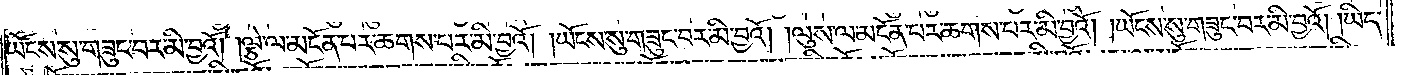ཡོངས་སུ་གཟུང་བར་མི་བྱའོ། །ལྕེ་ལ་མངོན་པར་ཆགས་པར་མི་བྱའོ། །ཡོངས་སུ་གཟུང་བར་མི་བྱའོ། །ལུས་ལ་མངོན་པར་ཆགས་པར་མི་བྱའོ། །ཡོངས་སུ་གཟུང་བར་མི་བྱའོ། །ཡིད་
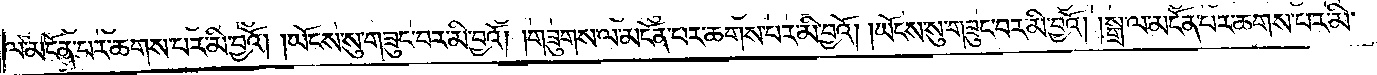ལ་མངོན་པར་ཆགས་པར་མི་བྱའོ། །ཡོངས་སུ་གཟུང་བར་མི་བྱའོ། །གཟུགས་ལ་མངོན་པར་ཆགས་པར་མི་བྱའོ། །ཡོངས་སུ་གཟུང་བར་མི་བྱའོ། །སྒྲ་ལ་མངོན་པར་ཆགས་པར་མི་
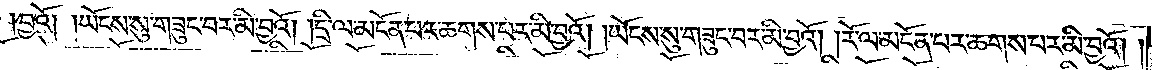བྱའོ། །ཡོངས་སུ་གཟུང་བར་མི་བྱའོ། །དྲི་ལ་མངོན་པར་ཆགས་པར་མི་བྱའོ། །ཡོངས་སུ་གཟུང་བར་མི་བྱའོ། །རོ་ལ་མངོན་པར་ཆགས་པར་མི་བྱའོ། །
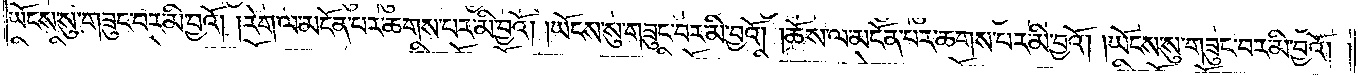ཡོངས་སུ་གཟུང་བར་མི་བྱའོ། །རེག་ལ་མངོན་པར་ཆགས་པར་མི་བྱའོ། །ཡོངས་སུ་གཟུང་བར་མི་བྱའོ། །ཆོས་ལ་མངོན་པར་ཆགས་པར་མི་བྱའོ། །ཡོངས་སུ་གཟུང་བར་མི་བྱའོ། །
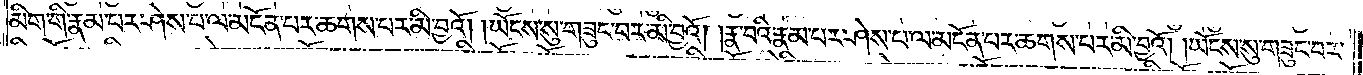མིག་གི་རྣམ་པར་ཤེས་པ་ལ་མངོན་པར་ཆགས་པར་མི་བྱའོ། །ཡོངས་སུ་གཟུང་བར་མི་བྱའོ། །རྣ་བའི་རྣམ་པར་ཤེས་པ་ལ་མངོན་པར་ཆགས་པར་མི་བྱའོ། །ཡོངས་སུ་གཟུང་བར་
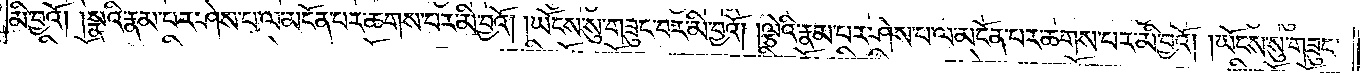མི་བྱའོ། །སྣའི་རྣམ་པར་ཤེས་པ་ལ་མངོན་པར་ཆགས་པར་མི་བྱའོ། །ཡོངས་སུ་གཟུང་བར་མི་བྱའོ། །ལྕེའི་རྣམ་པར་ཤེས་པ་ལ་མངོན་པར་ཆགས་པར་མི་བྱའོ། །ཡོངས་སུ་གཟུང་
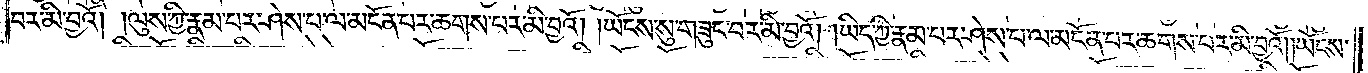བར་མི་བྱའོ། །ལུས་ཀྱི་རྣམ་པར་ཤེས་པ་ལ་མངོན་པར་ཆགས་པར་མི་བྱའོ། །ཡོངས་སུ་གཟུང་བར་མི་བྱའོ། །ཡིད་ཀྱི་རྣམ་པར་ཤེས་པ་ལ་མངོན་པར་ཆགས་པར་མི་བྱའོ། །ཡོངས་
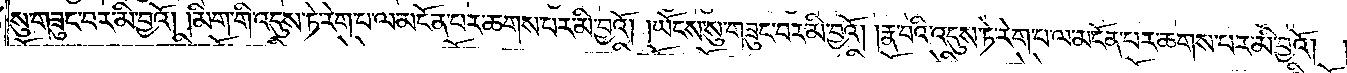སུ་གཟུང་བར་མི་བྱའོ། །མིག་གི་འདུས་ཏེ་རེག་པ་ལ་མངོན་པར་ཆགས་པར་མི་བྱའོ། །ཡོངས་སུ་གཟུང་བར་མི་བྱའོ། །རྣ་བའི་འདུས་ཏེ་རེག་པ་ལ་མངོན་པར་ཆགས་པར་མི་བྱའོ། །
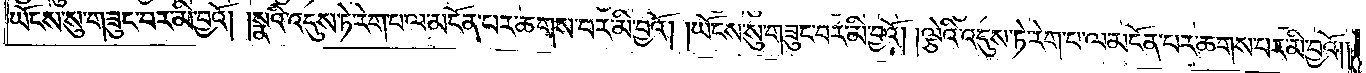ཡོངས་སུ་གཟུང་བར་མི་བྱའོ། །སྣའི་འདུས་ཏེ་རེག་པ་ལ་མངོན་པར་ཆགས་པར་མི་བྱའོ། །ཡོངས་སུ་གཟུང་བར་མི་བྱའོ། །ལྕེའི་འདུས་ཏེ་རེག་པ་ལ་མངོན་པར་ཆགས་པར་མི་བྱའོ། །
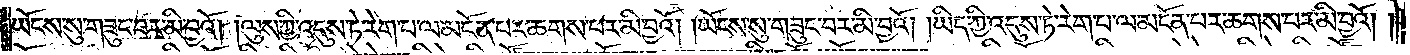ཡོངས་སུ་གཟུང་བར་མི་བྱའོ། །ལུས་ཀྱི་འདུས་ཏེ་རེག་པ་ལ་མངོན་པར་ཆགས་པར་མི་བྱའོ། །ཡོངས་སུ་གཟུང་བར་མི་བྱའོ། །ཡིད་ཀྱི་འདུས་ཏེ་རེག་པ་ལ་མངོན་པར་ཆགས་པར་མི་བྱའོ། །
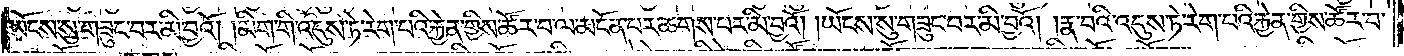ཡོངས་སུ་གཟུང་བར་མི་བྱའོ། །མིག་གི་འདུས་ཏེ་རེག་པའི་རྐྱེན་གྱིས་ཚོར་བ་ལ་མངོན་པར་ཆགས་པར་མི་བྱའོ། །ཡོངས་སུ་གཟུང་བར་མི་བྱའོ། །རྣ་བའི་འདུས་ཏེ་རེག་པའི་རྐྱེན་གྱིས་ཚོར་བ་
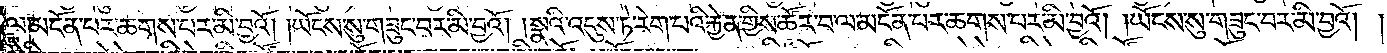ལ་མངོན་པར་ཆགས་པར་མི་བྱའོ། །ཡོངས་སུ་གཟུང་བར་མི་བྱའོ། །སྣའི་འདུས་ཏེ་རེག་པའི་རྐྱེན་གྱིས་ཚོར་བ་ལ་མངོན་པར་ཆགས་པར་མི་བྱའོ། །ཡོངས་སུ་གཟུང་བར་མི་བྱའོ། །
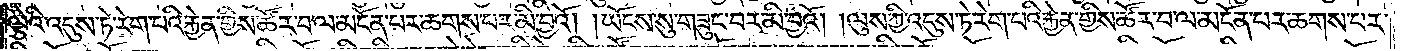ལྕེའི་འདུས་ཏེ་རེག་པའི་རྐྱེན་གྱིས་ཚོར་བ་ལ་མངོན་པར་ཆགས་པར་མི་བྱའོ། །ཡོངས་སུ་གཟུང་བར་མི་བྱའོ། །ལུས་ཀྱི་འདུས་ཏེ་རེག་པའི་རྐྱེན་གྱིས་ཚོར་བ་ལ་མངོན་པར་ཆགས་པར་
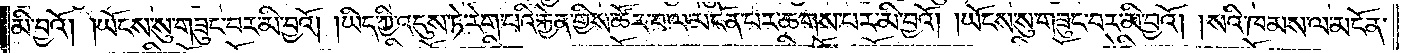མི་བྱའོ། །ཡོངས་སུ་གཟུང་བར་མི་བྱའོ། །ཡིད་ཀྱི་འདུས་ཏེ་རེག་པའི་རྐྱེན་གྱིས་ཚོར་བ་ལ་མངོན་པར་ཆགས་པར་མི་བྱའོ། །ཡོངས་སུ་གཟུང་བར་མི་བྱའོ། །སའི་ཁམས་ལ་མངོན་
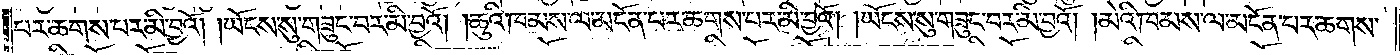པར་ཆགས་པར་མི་བྱའོ། །ཡོངས་སུ་གཟུང་བར་མི་བྱའོ། །ཆུའི་ཁམས་ལ་མངོན་པར་ཆགས་པར་མི་བྱའོ། །ཡོངས་སུ་གཟུང་བར་མི་བྱའོ། །མེའི་ཁམས་ལ་མངོན་པར་ཆགས་
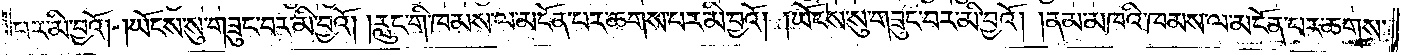པར་མི་བྱའོ། །ཡོངས་སུ་གཟུང་བར་མི་བྱའོ། །རླུང་གི་ཁམས་ལ་མངོན་པར་ཆགས་པར་མི་བྱའོ། །ཡོངས་སུ་གཟུང་བར་མི་བྱའོ། །ནམ་མཁའི་ཁམས་ལ་མངོན་པར་ཆགས་
